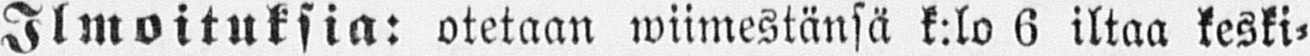Ilmoituksia: otetaan wiimestänsä k:lo 6 iltaa keski-
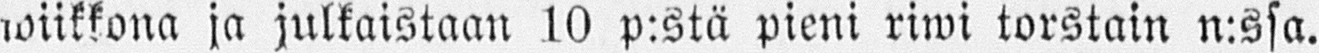wiikkona ja julkaistaan 10 p:stä pieni riwi torstain n:ssa.
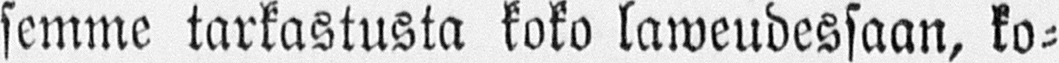semme tarkastusta koko laweudessaan, ko-
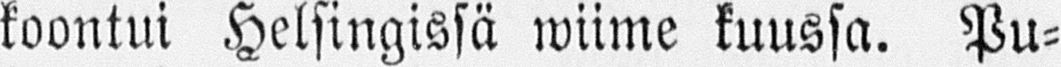koontui Helsingissä wiime kuussa. Pu-
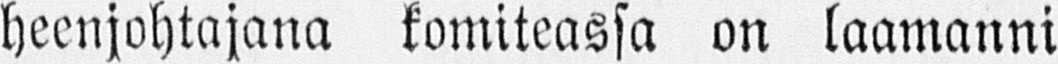heenjohtajana komiteassa on laamanni
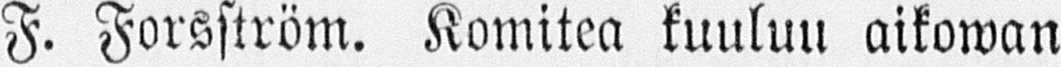F. Forsström. Komitea kuuluu aikowan
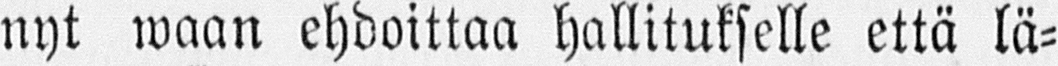nyt waan ehdoittaa hallitukselle että lä-
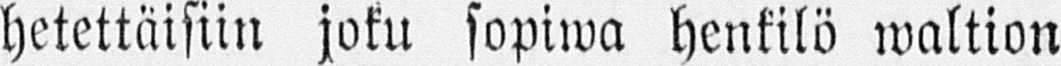hetettäisiin joku sopiwa henkilö waltion
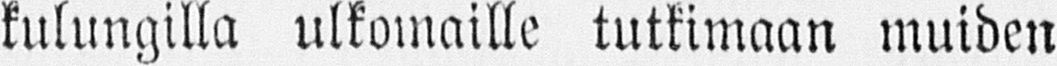kulungilla ulkomaille tutkimaan muiden
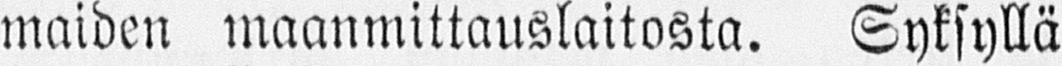maiden maanmittauslaitosta. Syksyllä
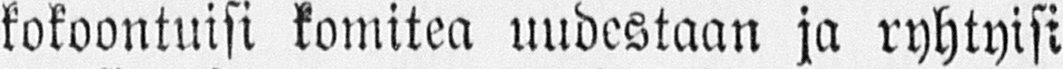kokoontuisi komitea uudestaan ja ryhtyisi
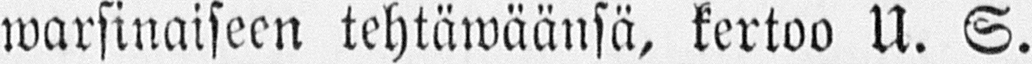warsinaiseen tehtäwäänsä, kertoo U. S.
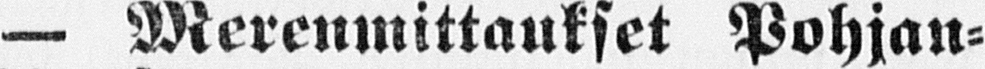— Merenmittaukset Pohjan-
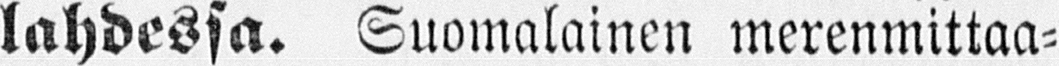lahdessa. Suomalainen merenmittaa-
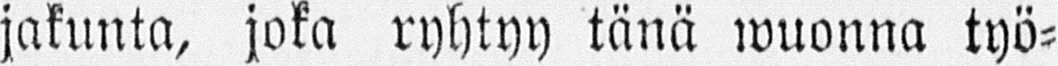jakunta, joka ryhtyy tänä wuonna työ-
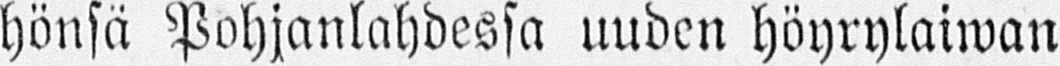hönsä Pohjanlahdessa uuden höyrylaiwan
